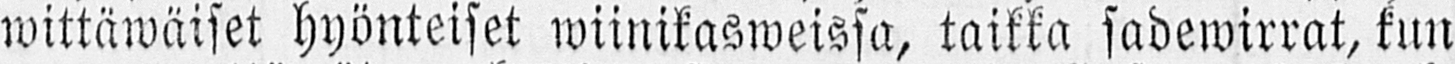wittäwäiset hyönteiset wiinikaweissa, taikka sadewirrat, kun
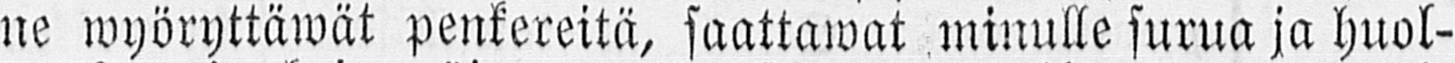ne wyöryttäwät penkereitä, saattawat minulle surua ja huol-
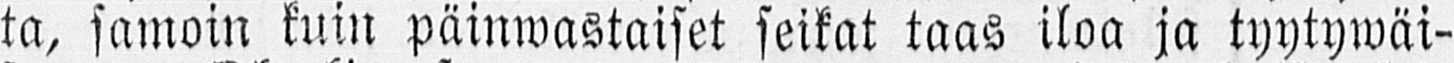ta, samoin kuin päinwastaiset seikat taas iloa ja tyytywäi-
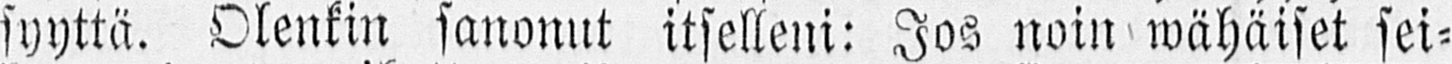syyttä. Olenkin sanonut itselleni: Jos noin wähäiset sei-
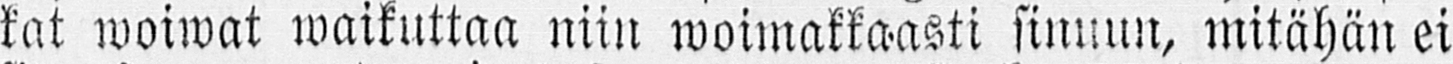kat woiwat waikuttaa niin woimakkaasti sinuun, mitähän ei
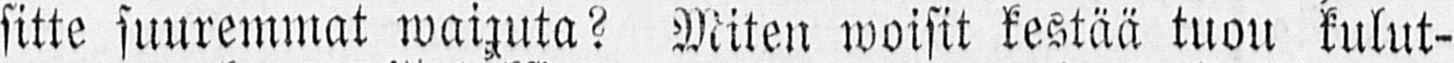sitte suuremmat waikuta? Miten woisit kestää tuou kulut-
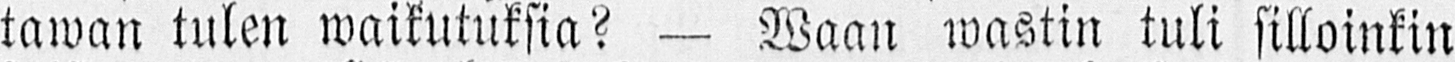tawan tulen waikutuksia? — Waan wastin tuli silloinkin
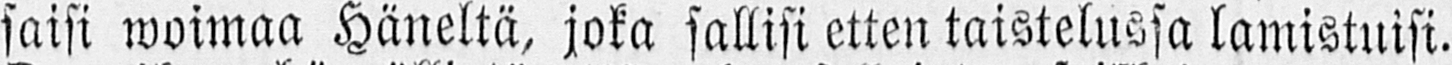saisi woimaa Häneltä, joka sallisi etten taistelussa lamistuisi.
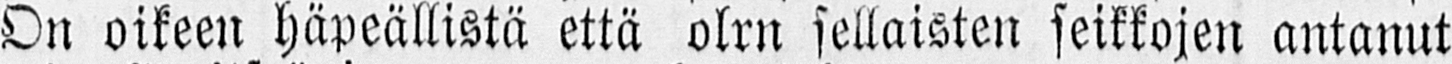On oikeen häpeällistä että olrn sellaisten seikkojen antanut
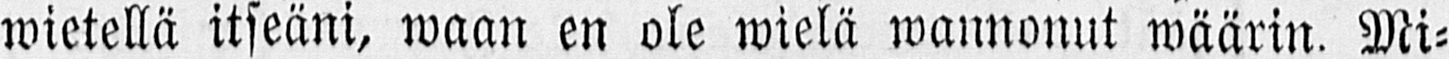wietellä itseäni, waan en ole wielä wannonut wäärin. Mi-
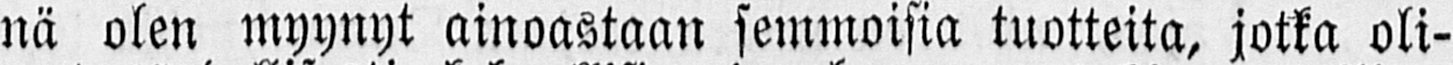nä olen myynyt ainoastaan semmoisia tuotteita, jotka oli-
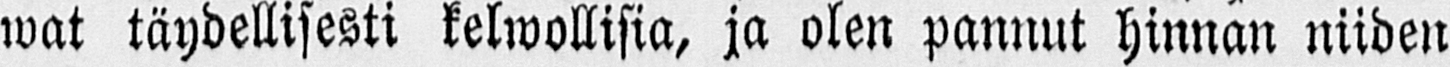wat täydellisesti kelwollisia, ja olen pannut hinnan niiden
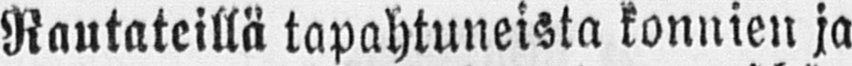Rautateillä tapahtuneista konnien ja
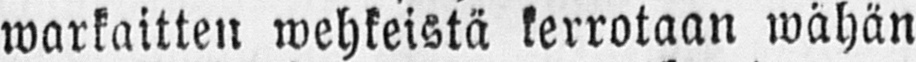warkaitten wehkeistä kerrotaan wähän
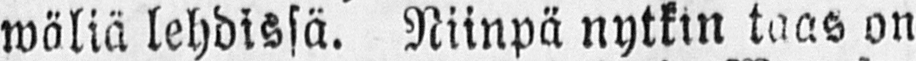wäliä lehdissä. Niinpä nytkin taas on
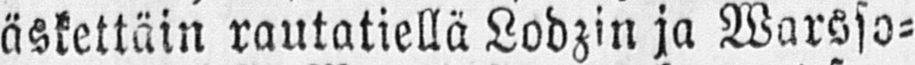äskettäin rautatiellä Lodzin ja Warsso-
